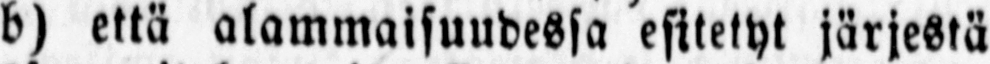b) että alammaisuudessa esitetyt järjestä-
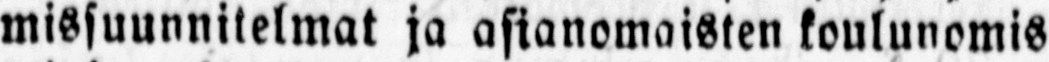missuunnilelmat ja asianomaisten koulunomis-
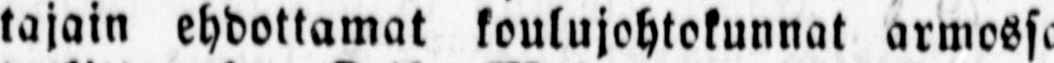tajain ehdottamat koulujohtokunnat armossa
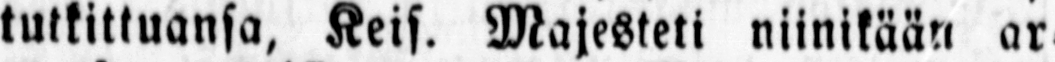tutkittuansa, Keis. Majesteti niinikään ar-
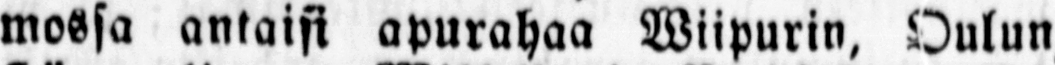mossa antaisi apurahaa Wiipurin, Oulun,
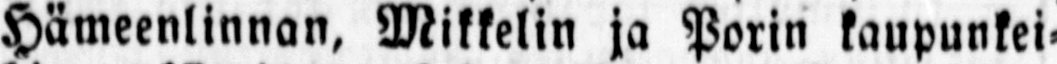Hämeenlinnan, Mikkelin ja Porin kaupunkei-
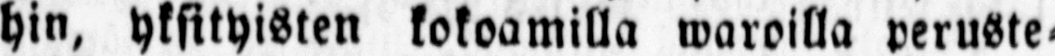hin, yksityisten kokoamilla waroilla veruste-
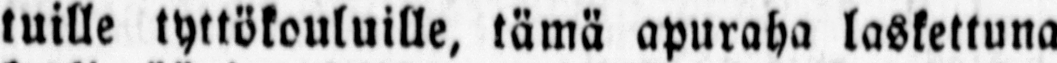tuille tyttökouluille, tämä apuraha laskettuna
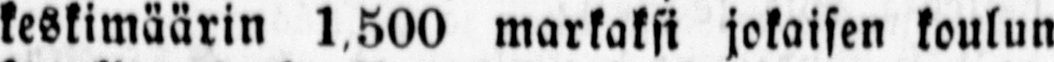keskimäärin 1,500 markaksi jokaisen koulun
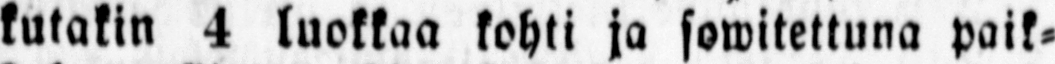kutakin 4 luokkaa kohti ja sowitettuna paik-
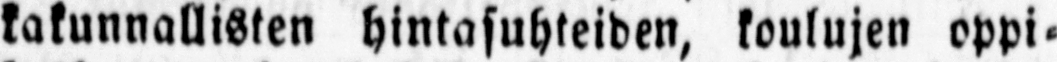kakunnallisten hintasuhteiden, koulujen oppi-
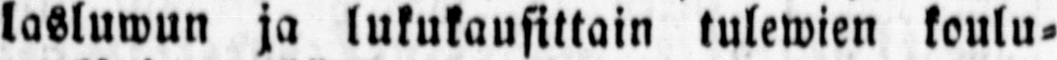lasluwun ja lukukausittain tulewien koulu-
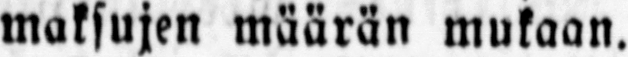maksujen määrän mukaan.
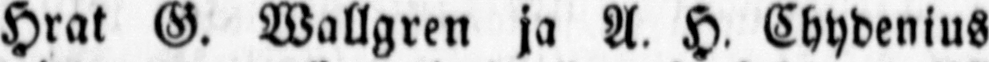Hrat G. Wallgren ja A. H. Chydenius
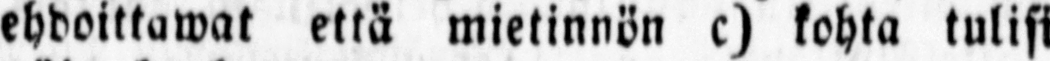ehdoittawat että mietinnön c) kohta tulisi
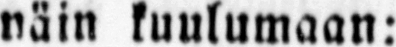näin kuulumaan:
